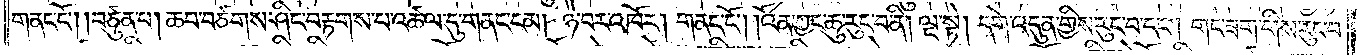གནང་ངོ༌། །བཙུན་པ། ཆབ་བཙགས་ཤིང་བརྟགས་པ་འཚལ་དུ་གནང་ངམ། ཉེ་བར་འཁོར། གནང་ངོ༌། །འོན་ཀྱང་ཆུ་རུང་བ་ནི། ལྔ་སྟེ། དགེ་འདུན་གྱིས་རུང་བ་དང༌། གང་ཟག་གིས་རུང་བ་
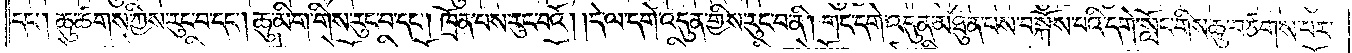དང༌། ཆུ་ཚགས་ཀྱིས་རུང་བ་དང༌། ཆུ་མིག་གིས་རུང་བ་དང༌། ཁྲོན་པས་རུང་བའོ། །དེ་ལ་དགེ་འདུན་གྱིས་རུང་བ་ནི། གང་དགེ་འདུན་མཐུན་པས་བསྐོས་པའི་དགེ་སློང་གིས་ཆུ་བཙགས་པར་
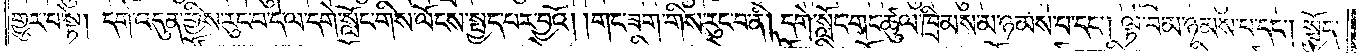གྱུར་པ་སྟེ། དགེ་འདུན་གྱིས་རུང་བ་དེ་ལ་དགེ་སློང་གིས་ལོངས་སྤྱད་པར་བྱའོ། །གང་ཟག་གིས་རུང་བ་ནི། དགེ་སློང་གང་ཚུལ་ཁྲིམས་མ་ཉམས་པ་དང༌། ལྟ་བ་མ་ཉམས་པ་དང༌། སྤྱོད་
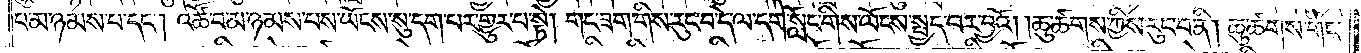པ་མ་ཉམས་པ་དང༌། འཚོ་བ་མ་ཉམས་པས་ཡོངས་སུ་དག་པར་གྱུར་པ་སྟེ། གང་ཟག་གིས་རུང་བ་དེ་ལ་དགེ་སློང་གིས་ལོངས་སྤྱད་པར་བྱའོ། །ཆུ་ཚགས་ཀྱིས་རུང་བ་ནི། ཆུ་ཚགས་གང་
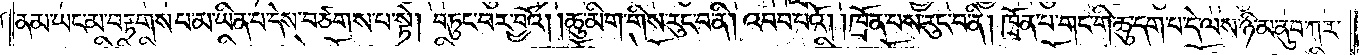ནམ་ཡང་མ་བརྟགས་པ་མ་ཡིན་པ་དེས་བཙགས་པ་སྟེ། བཏུང་བར་བྱའོ། །ཆུ་མིག་གིས་རུང་བ་ནི། འབབ་པའོ། །ཁྲོན་པས་རུང་བ་ནི། ཁྲོན་པ་གང་གི་ཆུ་དག་པ་དེ་ལས་ཉི་མ་ནུབ་ཀར་
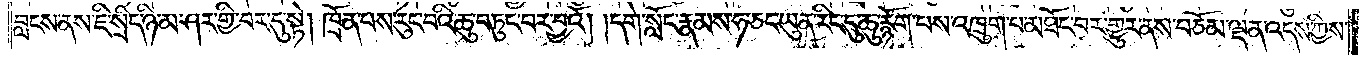བླངས་ནས་ཇི་སྲིད་ཉི་མ་ཤར་གྱི་བར་དུ་སྟེ། ཁྲོན་པས་རུང་བའི་ཆུ་བཏུང་བར་བྱའོ། །དགེ་སློང་རྣམས་ཧ་ཅང་ཡུན་རིང་དུ་ཆུ་རྙོག་པས་འཁྲུག་པ་མཐོང་བར་གྱུར་ནས་བཅོམ་ལྡན་འདས་ཀྱིས་
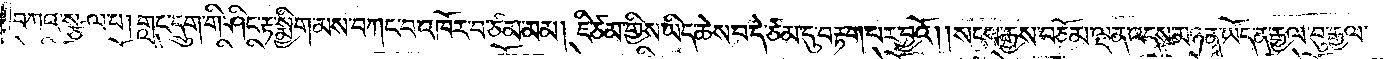བཀའ་སྩལ་པ། གླང་དྲུག་གི་ཤིང་རྟ་སྨྱིག་མས་བཀང་བ་འཁོར་བ་ཙམ་མམ། ཇི་ཙམ་གྱིས་ཡིད་ཆེས་པ་དེ་ཙམ་དུ་བརྟག་པར་བྱའོ། །སངས་རྒྱས་བཅོམ་ལྡན་འདས་མཉན་ཡོད་ན་རྒྱལ་བུ་རྒྱལ་
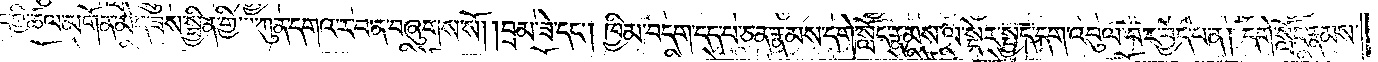བྱེད་ཀྱི་ཚལ་མགོན་མེད་ཟས་སྦྱིན་གྱི་ཀུན་དགའ་ར་བ་ན་བཞུགས་སོ། །བྲམ་ཟེ་དང༌། ཁྱིམ་བདག་དད་པ་ཅན་རྣམས་དགེ་སློང་རྣམས་ལ་སྡེར་སྤྱད་དག་འབུལ་བར་བྱེད་པ་ན། དགེ་སློང་རྣམས་
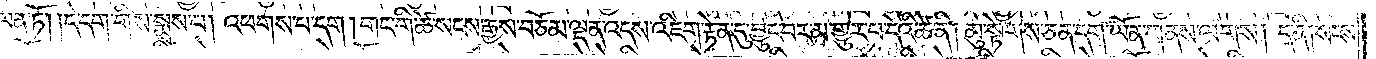ལེན་ཏོ། །དེ་དག་གིས་སྨྲས་པ། འཕགས་པ་དག །གང་གི་ཚེ་སངས་རྒྱས་བཅོམ་ལྡན་འདས་འཇིག་རྟེན་དུ་བྱུང་བར་མ་གྱུར་པ་དེའི་ཚེ་ནི། མུ་སྟེགས་ཅན་དག་ཡོན་གནས་ལགས། ད་ནི། སངས་
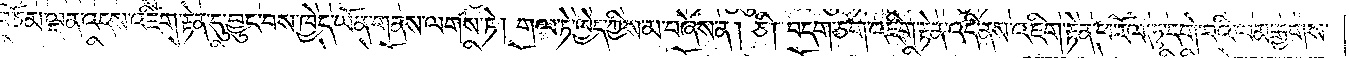རྒྱས་བཅོམ་ལྡན་འདས་འཇིག་རྟེན་དུ་བྱུང་བས་ཁྱེད་ཡོན་གནས་ལགས་ཏེ། གལ་ཏེ་ཁྱེད་ཀྱིས་མ་བཞེས་ན། ཅི། བདག་ཅག་འཇིག་རྟེན་འདི་ནས་འཇིག་རྟེན་ཕ་རོལ་ཏུ་དགེ་བའི་ལམ་རྒྱགས་
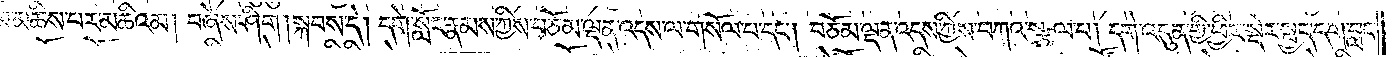མ་མཆིས་པར་མཆིའམ། བཞེས་ཤིག །སྐབས་དེ། དགེ་སློང་རྣམས་ཀྱིས་བཅོམ་ལྡན་འདས་ལ་གསོལ་བ་དང༌། བཅོམ་ལྡན་འདས་ཀྱིས་བཀའ་སྩལ་པ། དགེ་འདུན་གྱི་ཕྱིར་སྡེར་སྤྱད་དག་བླང་
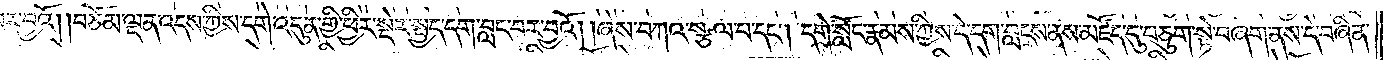བར་བྱའོ། །བཅོམ་ལྡན་འདས་ཀྱིས་དགེ་འདུན་གྱི་ཕྱིར་སྡེར་སྤྱད་དག་བླང་བར་བྱའོ། །ཞེས་བཀའ་སྩལ་པ་དང༌། དགེ་སློང་རྣམས་ཀྱིས་དེ་དག་བླངས་ནས་མཛོད་དུ་བཅུག་སྟེ་བཞག་ནས་དེ་བཞིན་
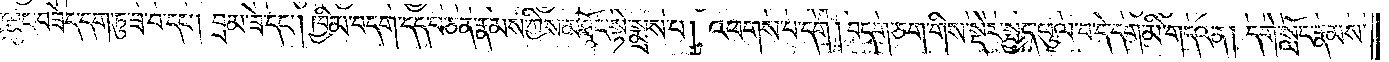དུ་ལྷུང་བཟེད་དག་ཏུ་ཟ་བ་དང༌། བྲམ་ཟེ་དང༌། ཁྱིམ་བདག་དད་པ་ཅན་རྣམས་ཀྱིས་མཐོང་སྟེ་སྨྲས་པ། འཕགས་པ་དག །བདག་ཅག་གིས་སྡེར་སྤྱད་ཕུལ་བ་དེ་དག་མི་གདའ་ན། དགེ་སློང་རྣམས་
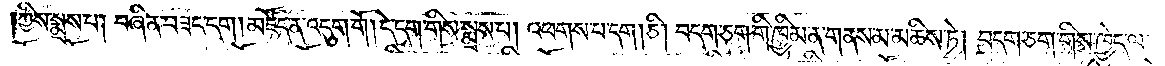ཀྱིས་སྨྲས་པ། བཞིན་བཟང་དག །མཛོད་ན་འདུག་གོ །དེ་དག་གིས་སྨྲས་པ། འཕགས་པ་དག །ཅི། བདག་ཅག་གི་ཁྱིམ་ན་གནས་མ་མཆིས་ཏེ། བདག་ཅག་གིས་ཁྱེད་ལ་
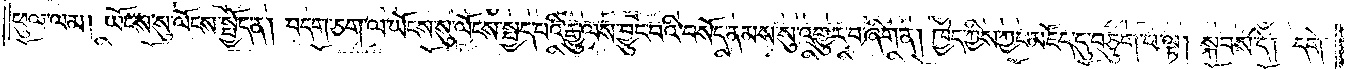ཕུལ་ལམ། ཡོངས་སུ་ལོངས་སྤྱོད་ན། བདག་ཅག་ལ་ཡོངས་སུ་ལོངས་སྤྱད་པའི་རྒྱུ་ལས་བྱུང་བའི་བསོད་ནམས་སུ་འགྱུར་བ་ཞིག་ན། ཁྱེད་ཀྱིས་ཀྱང་མཛོད་དུ་བཅུག་པ་ལྟ། སྐབས་དེ། དགེ་
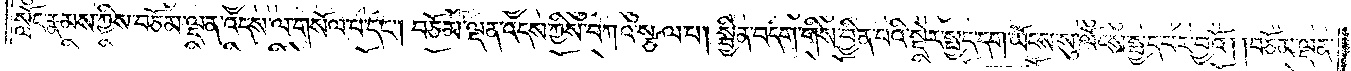སློང་རྣམས་ཀྱིས་བཅོམ་ལྡན་འདས་ལ་གསོལ་བ་དང༌། བཅོམ་ལྡན་འདས་ཀྱིས་བཀའ་སྩལ་པ། སྦྱིན་བདག་གིས་བྱིན་པའི་སྡེར་སྤྱད་དག་ཡོངས་སུ་ལོངས་སྤྱད་པར་བྱའོ། །བཅོམ་ལྡན་
